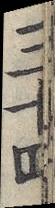三十四
